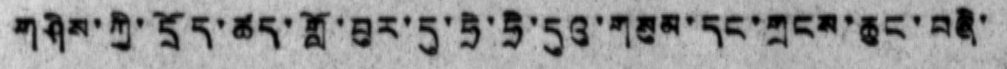གཤིས་ཀྱི་དྲོད་ཚད་གློ་བུར་དུ་ཧྲེ་ཧྲི་དུའུ་གསུམ་དང་གྲངས་ཆུང་བཞི་
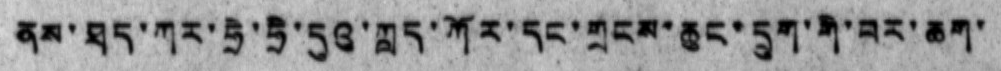ནས་ཐད་ཀར་ཧྲེ་ཧྲི་དུའུ་ཀླད་ཀོར་དང་གྲངས་ཆུང་དྲུག་གི་བར་ཆག་
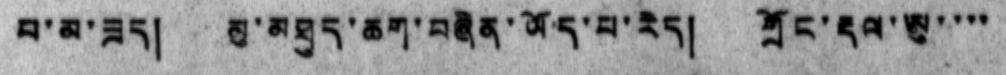པ་མ་ཟད། མུ་མཐུད་ཆག་བཞིན་ཡོད་པ་རེད། གྲོང་རྡལ་ཨུ་་་་
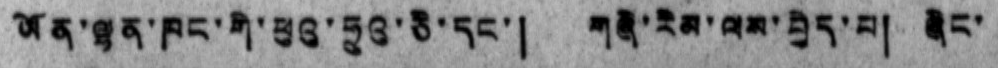ཡོན་ལྷན་ཁང་གི་ཕུའུ་ཧྲུའུ་ཅི་དང་། གཞི་རིམ་ལས་བྱེད་པ། ཞིང་
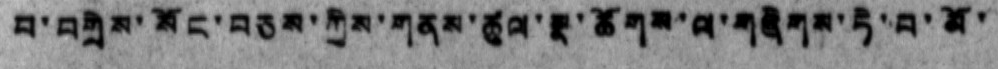པ་བགྲེས་སོང་བཅས་ཀྱིས་གནས་ཚུལ་སྣ་ཚོགས་ལ་གཞིགས་ཏེ་བ་མོ་
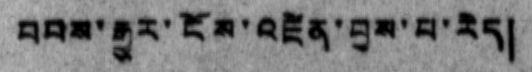བབས་རྒྱུར་ངོས་འཛིན་བྱས་པ་རེད།
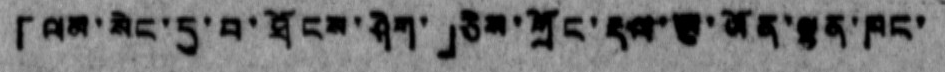「ལམ་སེང་དུ་བ་ཐོངས་ཤིག་」ཅས་གྲོང་རྡལ་ཨུ་ཡོན་ལྷན་ཁང་
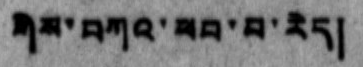གིས་བཀའ་ཕབ་པ་རེད།
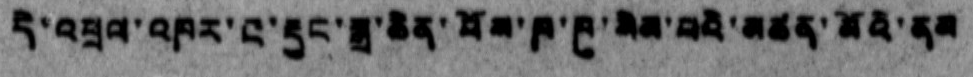དེ་འཕྲལ་འཁར་རྔ་རྡུང་སྒྲ་ཆེན་པོས་ཁ་ཁུ་སིམ་པའི་མཚན་མོའི་ནམ
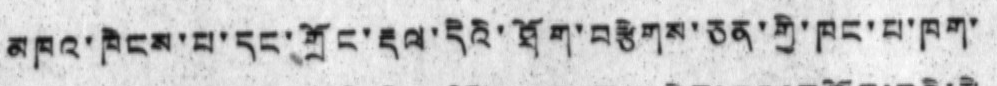མཁའ་ཁེངས་པ་དང་གྲོང་རྡལ་དེའི་ཐོག་བརྩེགས་ཅན་གྱི་ཁང་པ་ཁག་
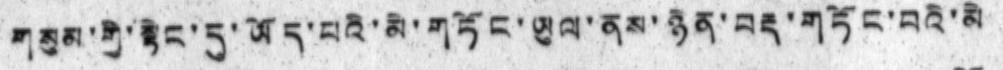གསུམ་གྱི་སྟེང་དུ་ཡོད་པའི་མེ་གཏོང་ཡུལ་ནས་ཉེན་བརྡ་གཏོང་བའི་མེ
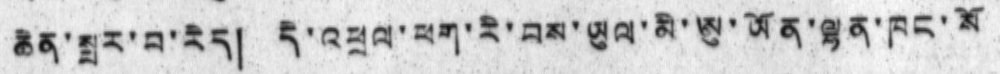ཆེན་སྤར་བ་རེད། དེ་འཕྲལ་ཕག་རི་བས་ཡུལ་མི་ཨུ་ཡོན་ལྷན་ཁང་སོ
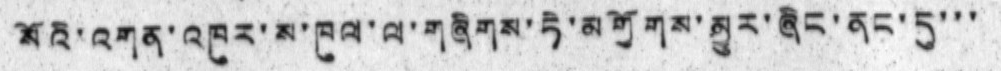སོའི་འགན་འཁུར་ས་ཁུལ་ལ་གཞིགས་ཏེ་མགྱོགས་མྱུར་ཞིང་ནང་དུ་་་
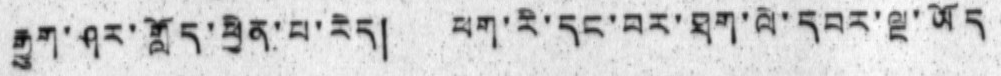རྒྱུག་ཤར་གློད་ཕྱིན་པ་རེད། ཕག་རི་དང་བར་ཐག་ལེ་དབར་ལྔ་ཡོད
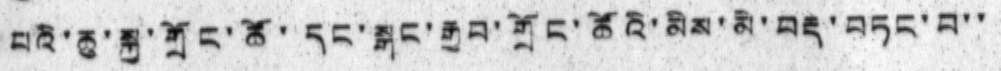པའི་ཆུ་སྐྱ་གྲོང་ཚོ་དང་སྒང་རྒྱབ་གྲོང་ཚོའི་མིས་མེ་བརྡ་བཏང་བ་་
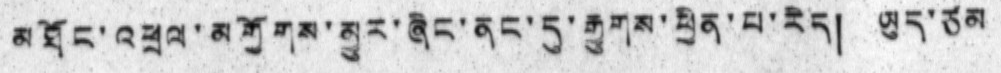མཐོང་འཕྲལ་མགྱོགས་མྱུར་ཞིང་ནང་དུ་རྒྱུགས་ཕྱིན་པ་རེད། ཡུད་ཙམ
